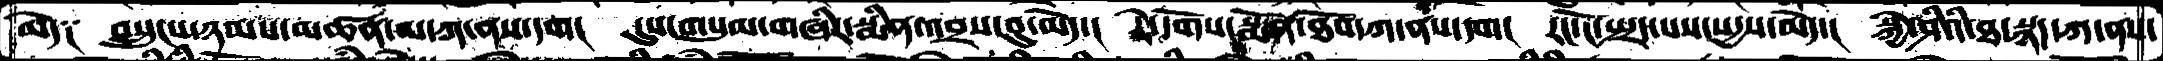མེད༑  བསྲུངས་ཉམས་མཚན་མ་ཀ་ནས་དག།  དུས་གསུམ་གཞིར་སྨིན་འབྲས་བུ་མེད་།  རེ་དོགས་སྨོན་ཐོབ་ཀ་ནས་དག།  རང་ངོ་སྤྲད་པས་སདྱས་མེད་། སྐྱེ་ཤིའི་ཐ་སྙད་ཀ་ནས་
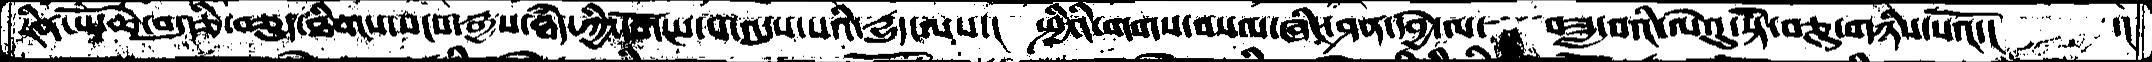རིན་པོ་ཆེ་བདུདཅི་བཅུད་ཐིགས་སངས་རྒྱས་ཐཾད་ཀྱི་དགོངས་པ་འདུས་པའི་རྒྱུད་ལས་།  སྤྱིའི་གགས་བསལ་ཞིང་ཤན་དབྱེ་ལ་    བཟླ་བའི་ལེའུ་སྟེ་བཅུ་གཉིས་པའོ་།    ་།
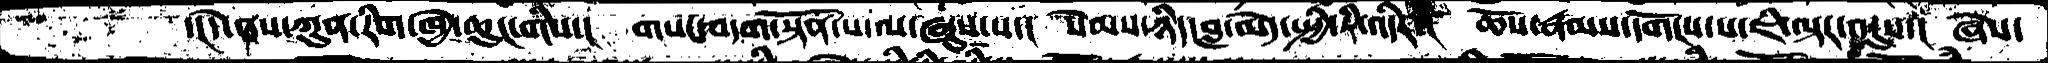་ངདེ་ནས་ཀུན་རིག་ཁྱེ་ཆུང་གིས་།  གསང་བདག་སྟོན་པ་ལ་ཞུས་པ་།  སེམས་ཉིད་བླ་མེད་སྤྱི་ཏི་འདིར་།  ཆོས་རྣམས་དགོངས་པ་ཇི་ལྟར་འདུས་།  ཞེས་
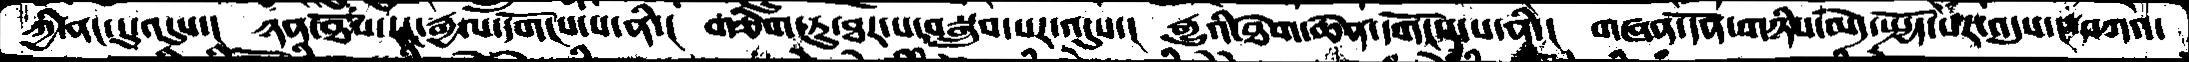ཀྱི་ནང་དུ་འདུས་།  ཉན་ཐོས་རང་རྒྱལ་དགོངས་པ་ནི་།  གཅིག་ཏུ་ཐར་པ་བསྒྲུབ་པར་འདུས་།  རྒྱུའི་ཐེག་ཆེན་དགོངས་པ་ནི་།  གཞན་དོན་གཉིས་མེད་སྤྱོད་པར་འདུས་།  བཀའ་
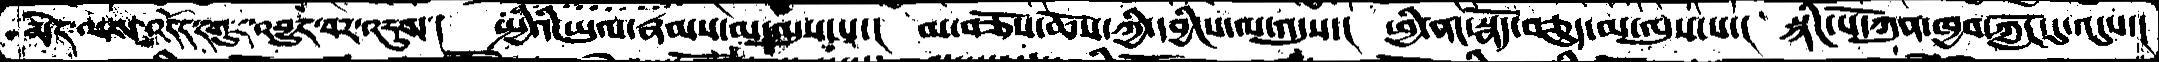མེད་ལས་འདོད་དགུར་འབྱུང་བར་འདུས་།  སྤྱིའི་ཡུལ་རྣམས་མ་ལུས་དང་་།  མ་བཅོས་ཆོས་ཀྱི་དབྱིངས་ལ་འདུས་།  ཕྱི་ནང་སྣོད་བཅུད་མ་ལུས་པ་།  སྙིང་པོ་ཀུན་ཁྱབ་ཀློང་དུ་འདུས་།
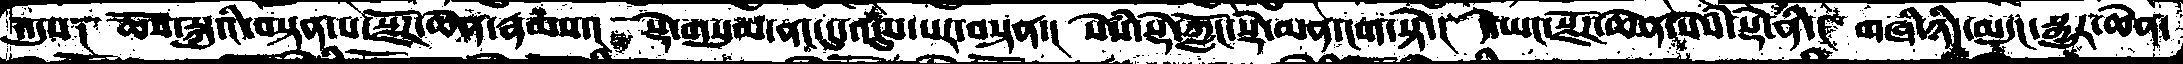འདུས༑   ཆོས་སྐུའི་བསྟན་པ་སྫོཌ་ཆེན་རྣམས་།  སྡེ་གསུམ་ནང་དུ་འདུས་པར་བསྟན་།  སེསཾ་སྡེ་ཀློང་སྡེ་མན་ངག་སྟེ་།  དེ་ཡང་སྫོཌ་ཆེན་སེསཾ་སྡེ་ནི་།  གཞི་ཉིད་མདུང་སྒྱུར་ཆེན་
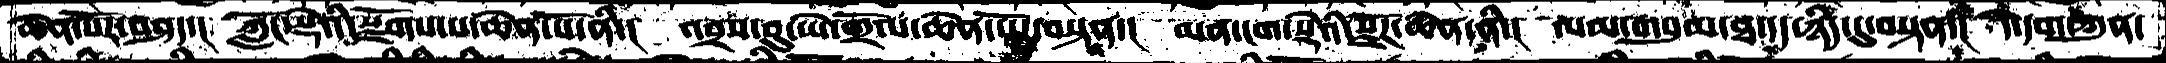ཆེན་པོར་བཤད་།  ཀློང་སྡེའི་སྫོགས་པ་ཆེན་པོ་ནི་།  འབྲས་བུ་ཡེ་གྲོལ་ཆེན་པོར་བསྟན་།  མན་ངག་སྡེའི་སྫོཌ་ཆེན་ནི་།  ལམ་གསུམ་ཐ་དད་ཉིད་དུ་བསྟན་།  དེ་དག་ཀུན་
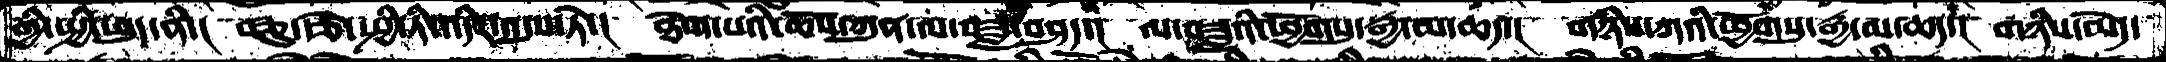གྱི་སྤྱི་ཕུད་ནི་།  བཅུ་རྩེ་སྤྱི་ཏི་འདིར་འདུས་ཏེ་།  ཐེག་པའི་ཆོས་ཀུན་ལ་བཟླ་བཤད་།  ལ་བཟླའི་ཕྱོགསུ་རྒྱ་མ་ཆད་།  གཉིས་ཀའི་ཕྱོགསུ་རྒྱ་མ་ཆད་།  གཉིས་མེད་
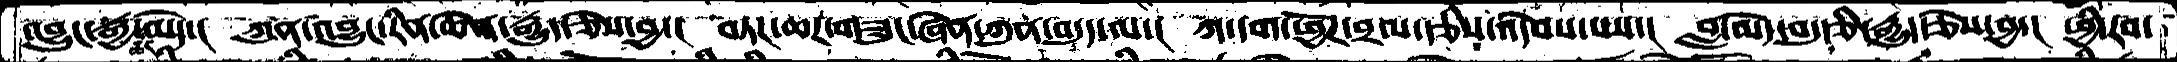འབྱུང་རྒྱ་ཚང་མེད་།  ཀུན་འབྱུང་རིན་ཆེན་རྒྱུད་ཅེས་བྱ་།  བཏཌ་ཆཌ་གཟུང་ཞེན་ཀུན་བདུད་ལ་།  ཀ་དག་ཕྱོཌ་བྲལ་རྩིས་འདེབས་པས་།  བླ་མེད་བདུརྩི་རྒྱུད་ཅེས་བྱ་།  ཕྱི་རབ་
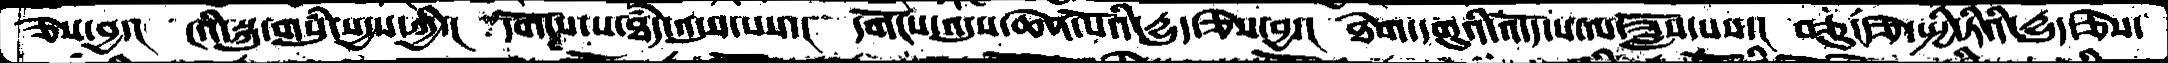ཅེས་བྱ་།  ངའི་སྐུ་གསུཾ་སདྱས་ཀྱི་།  དགོངས་པ་ཐཾད་འདུས་པས་།  དགོངས་འདུས་ཆེན་པོའི་དྱུད་ཅེས་བྱ་།  ཐེག་དགུའི་འདོད་པ་ལ་ཟློས་པས་།  བཅུ་རྩེ་སྤྱི་ཏིའི་དྱུད་ཅེས་
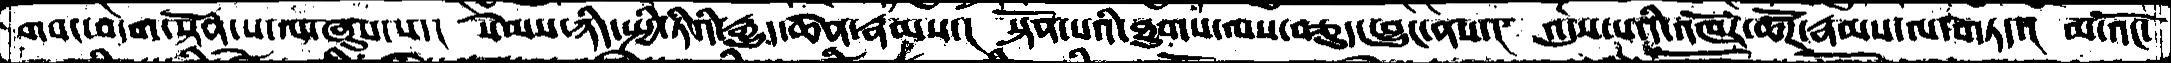གསང་བདག་སྟོན་པ་ལ་ཞུས་པ་།   སེམས་ཉིད་སྤྱི་ཏིའི་རྒྱུད་ཆེན་རྣམས་།  སྟོན་པའི་ཐུགས་ལས་བཅུད་བྱུང་ནས་།  འདུས་པའི་འཁོར་ཚོཌ་རྣམས་ལ་གཏད་།  མ་འོང་
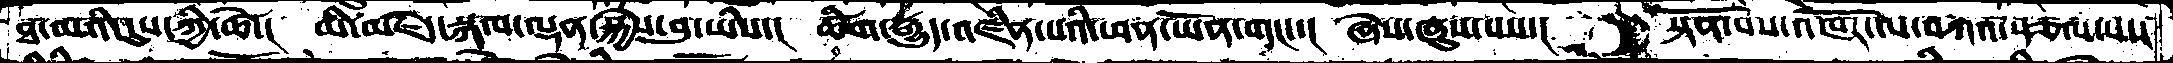ཐ་མའི་དུས་ཀྱི་ཚེ་།  མི་མཇེད་སྐལ་ལྡན་སྐྱེས་བུ་ཡིས་།  ཚིག་རྒྱུད་འཛིན་པའི་ཕན་ཡོན་གང་།  ཞེས་ཞུས་པས་།   སྟོན་པས་འཁོར་ལ་བཀའ་སྩལ་པས་
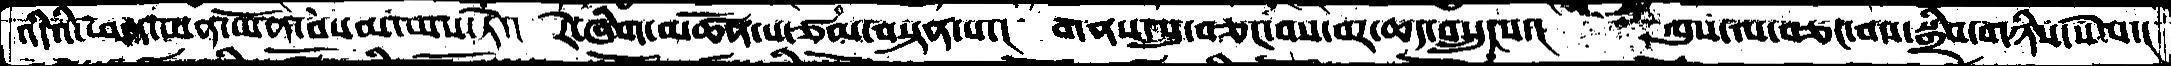འདིའི་ཕན་ཕན་ཡོན་བསམ་ཡས་ཏེ་། རེ་ཞིག་མཚོན་པ་ཙམ་བསྟན་པ་།  གནས་སུ་བཅང་བས་བར་ཆད་བསྲུངས་།  ལུས་ལ་བཅང་བས་སྒྲིབ་གཉིས་སེལ་།
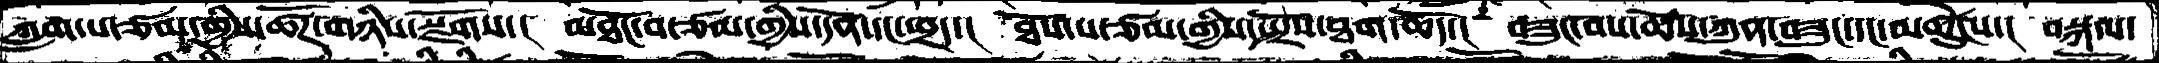ཀླག་པ་ཙམ་གྱིས་ཚོཌ་གཉིས་སྫོགས་།  མཐོང་བ་ཙམ་གྱིས་དོན་དང་ཕྲད་།  ཐོས་པ་ཙམ་གྱིས་སྤྲོས་ཐག་ཆོད་།  བཟུང་བས་ཆོས་ཀུན་བཟུང་དང་མཚུངས་།  བསྐལ་
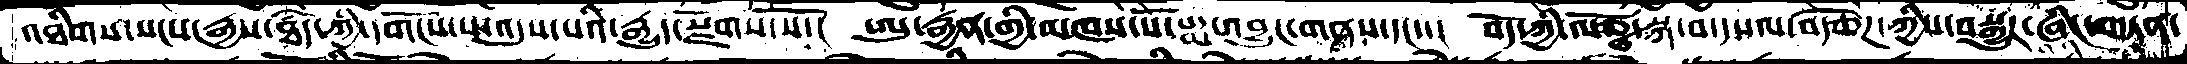འཐིགས་སངས་རྒྱས་ཐདཾ་ཀྱི་དགོངས་པ་འདུས་པའི་རྒྱུད་སྫོགས་སོ་།  ཨུ་རྒྱན་གྱི་མཁས་པོ་པདྨ་འབྱུང་གནས་དང་་།  བོད་ཀྱི་ལོཙྪ་སྐ་བ་དཔལ་བརྩེཌ་ཀྱིས་བསྒྱུར་ཞིང་གཏན་
